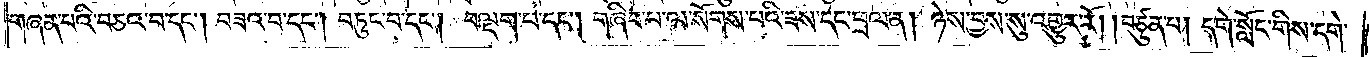གཞན་པའི་བཅའ་བ་དང༌། བཟའ་བ་དང༌། བཏུང་བ་དང༌། བལྡག་པ་དང༌། གཞིབ་པ་ལ་སོགས་པའི་ཟས་དང་ཕྲལ་ན། ཉེས་བྱས་སུ་འགྱུར་རོ། །བཙུན་པ། དགེ་སློང་གིས་དགེ་
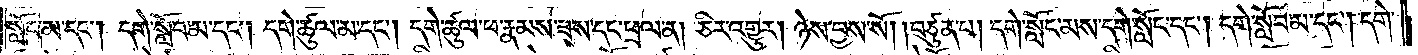སློང་མ་དང༌། དགེ་སློབ་མ་དང༌། དགེ་ཚུལ་མ་དང༌། དགེ་ཚུལ་ཕ་རྣམས་ཟས་དང་ཕྲལ་ན། ཅིར་འགྱུར། ཉེས་བྱས་སོ། །བཙུན་པ། དགེ་སློང་མས་དགེ་སློང་དང༌། དགེ་སློབ་མ་དང༌། དགེ་
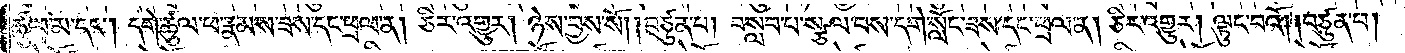ཚུལ་མ་དང༌། དགེ་ཚུལ་ཕ་རྣམས་ཟས་དང་ཕྲལ་ན། ཅིར་འགྱུར། ཉེས་བྱས་སོ། །བཙུན་པ། བསླབ་པ་སྩལ་བས་དགེ་སློང་ཟས་དང་ཕྲལ་ན། ཅིར་འགྱུར། ལྟུང་བའོ། །བཙུན་པ།
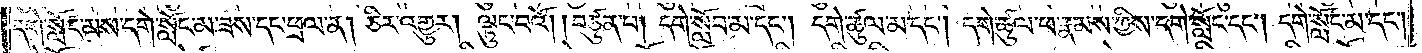དགེ་སློང་མས་དགེ་སློང་མ་ཟས་དང་ཕྲལ་ན། ཅིར་འགྱུར། ལྟུང་བའོ། །བཙུན་པ། དགེ་སློབ་མ་དང༌། དགེ་ཚུལ་མ་དང༌། དགེ་ཚུལ་ཕ་རྣམས་ཀྱིས་དགེ་སློང་དང༌། དགེ་སློང་མ་དང༌།
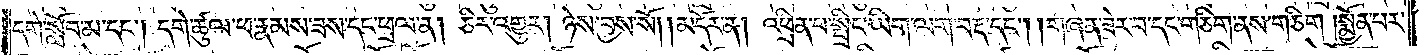དགེ་སློབ་མ་དང༌། དགེ་ཚུལ་ཕ་རྣམས་ཟས་དང་ཕྲལ་ན། ཅིར་འགྱུར། ཉེས་བྱས་སོ།    །མདོར་ན། འཕྲིན་པ་སྤྲིང་ཡིག་ལག་བརྡ་དང༌། །གཞན་ཟེར་བ་དང་གཅིག་ནས་གཅིག །སྨྱོན་པར་
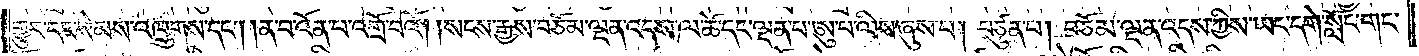གྱུར་དང་སེམས་འཁྲུགས་དང༌། །ན་བ་འོན་པ་འགྲོ་བའོ། །སངས་རྒྱས་བཅོམ་ལྡན་འདས་ལ་ཚེ་དང་ལྡན་པ་ཨུ་པ་ལིས་ཞུས་པ། བཙུན་པ། བཅོམ་ལྡན་འདས་ཀྱིས་ཡང་དགེ་སློང་གང་
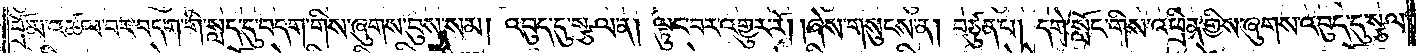བྲོ་མ་འཚལ་བར་བདག་གི་སླད་དུ་བདག་གིས་ཞུགས་བུས་སམ། འབུད་དུ་སྩལ་ན། ལྟུང་བར་འགྱུར་རོ། །ཞེས་གསུངས་ན། བཙུན་པ། དགེ་སློང་གིས་འཕྲིན་གྱིས་ཞུགས་འབུད་དུ་སྩལ་
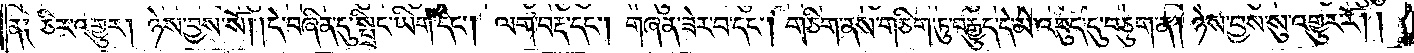ན༑ ཅིར་འགྱུར། ཉེས་བྱས་སོ། །དེ་བཞིན་དུ་སྤྲིང་ཡིག་དང༌། ལག་བརྡ་དང༌། གཞན་ཟེར་བ་དང༌། གཅིག་ནས་གཅིག་ཏུ་བརྒྱུད་དེ་མེ་འབུད་དུ་བཅུག་ན། ཉེས་བྱས་སུ་འགྱུར་རོ། །
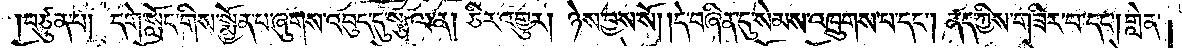།བཙུན་པ། དགེ་སློང་གིས་སྨྱོན་པ་ཞུགས་འབུད་དུ་སྩལ་ན། ཅིར་འགྱུར། ཉེས་བྱས་སོ། །དེ་བཞིན་དུ་སེམས་འཁྲུགས་པ་དང༌། ནད་ཀྱིས་གཟིར་བ་དང༌། གླེན་
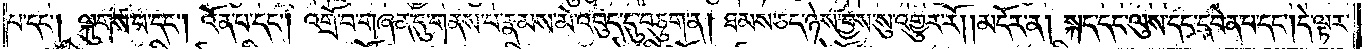པ་དང༌། ལྐུགས་པ་དང༌། འོན་པ་དང༌། འགྲོ་བ་གཞན་དུ་གནས་པ་རྣམས་མེ་འབུད་དུ་བཅུག་ན། ཐམས་ཅད་ཉེས་བྱས་སུ་འགྱུར་རོ།    །མདོར་ན། སྐད་དང་ལུས་དང་དབེན་པ་དང༌། དེ་ལྟར་
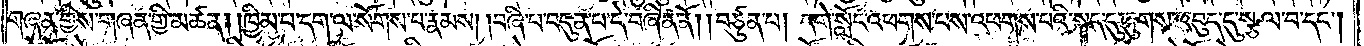གཞན་གྱིས་གཞན་གྱི་མཚན། །ཁྱིམ་པ་དག་ལ་སོགས་པ་རྣམས། །བཞི་པ་བདུན་པ་དེ་བཞིན་ནོ། །བཙུན་པ། དགེ་སློང་འཕགས་པས་འཕགས་པའི་སྐད་དུ་ཞུགས་འབུད་དུ་སྩལ་བ་དང༌།
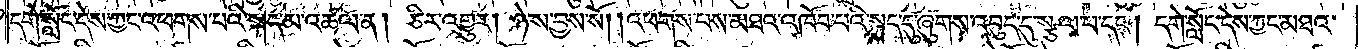དགེ་སློང་དེས་ཀྱང་འཕགས་པའི་སྐད་མ་འཚལ་ན། ཅིར་འགྱུར། ཉེས་བྱས་སོ། །འཕགས་པས་མཐའ་འཁོབ་བའི་སྐད་དུ་ཞུགས་འབུད་དུ་སྩལ་པ་དང༌། དགེ་སློང་དེས་ཀྱང་མཐའ་
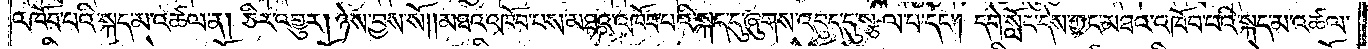འཁོབ་པའི་སྐད་མ་འཚལ་ན། ཅིར་འགྱུར། ཉེས་བྱས་སོ། །མཐའ་འཁོབ་པས་མཐའ་འཁོབ་པའི་སྐད་དུ་ཞུགས་འབུད་དུ་སྩལ་པ་དང༌། དགེ་སློང་དེས་ཀྱང་མཐའ་འཁོབ་པའི་སྐད་མ་འཚལ་
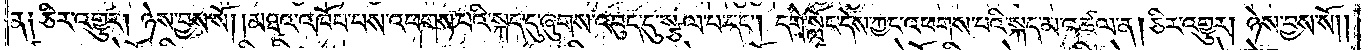ན༑ ཅིར་འགྱུར། ཉེས་བྱས་སོ། །མཐའ་འཁོབ་པས་འཕགས་པའི་སྐད་དུ་ཞུགས་འབུད་དུ་སྩལ་པ་དང༌། དགེ་སློང་དེས་ཀྱང་འཕགས་པའི་སྐད་མ་འཚལ་ན། ཅིར་འགྱུར། ཉེས་བྱས་སོ། །
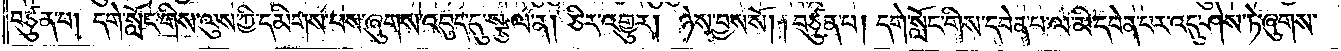བཙུན་པ། དགེ་སློང་གིས་ལུས་ཀྱི་དམིགས་པས་ཞུགས་འབུད་དུ་སྩལ་ན། ཅིར་འགྱུར། ཉེས་བྱས་སོ། །བཙུན་པ། དགེ་སློང་གིས་དབེན་པ་ལ་མི་དབེན་པར་འདུ་ཤེས་ཏེ་ཞུགས་
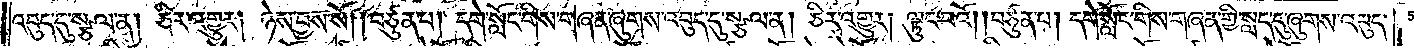འབུད་དུ་སྩལ་ན། ཅིར་འགྱུར། ཉེས་བྱས་སོ། །བཙུན་པ། དགེ་སློང་གིས་གཞན་ཞུགས་འབུད་དུ་སྩལ་ན། ཅིར་འགྱུར། ལྟུང་བའོ། །བཙུན་པ། དགེ་སློང་གིས་གཞན་གྱི་སླད་དུ་ཞུགས་འབུད་
